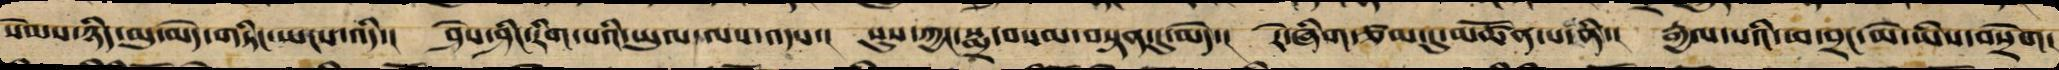སེམས་ཉིད་མུ་མེད་གཏིང་ཡངས་འདི་། ཤེས་ཤིང་རིག་པའི་ཡུལ་ལས་འདས་། སུས་ཀྱང་སྨྲ་བསམ་བསྟན་དུ་མེད་། རེ་ཞིག་ཙམ་དུ་མཚོན་པ་ནི་། རྒྱལ་པོའི་ཕ་བྲང་མེ་ཡིས་བསྲེག།
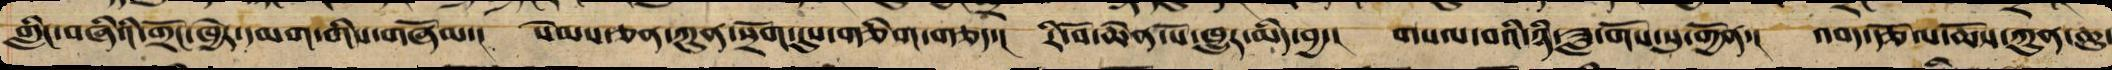གླིང་བཞིའི་གྲོང་ཁྱེར་དམག་གིས་གཞོམ་། སེམས་ཅན་ཀུན་སྲོག་དུས་གཅིག་གཅད་། རི་བོ་ཆེན་པོ་ཁྱུར་མིད་བྱ་། གསལ་བའི་ཉི་ཟླ་གོས་སུ་གྱོན་། འབད་རྩོལ་ཆོས་ཀུན་ཆུ་
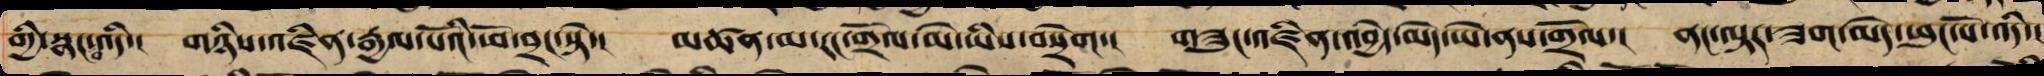གྱི་སྣང་བ་འདི། གཉིས་འཛིན་རྒྱལ་པོའི་ཕོ་བྲང་སྟེ། མཚན་མ་རང་གྲོལ་མེ་ཡིས་བསྲེག གཟུང་འཛིན་འབྱེད་མེད་ཡེ་ནས་གྲོལ། ནང་ལྟར་ཟག་མེད་ཕུང་པོ་འདི།
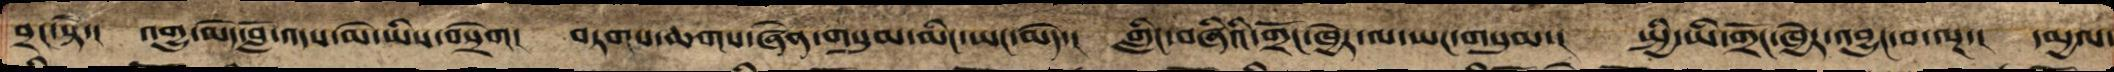བྲང་སྟེ་། འགྱུ་མེད་བློ་འདས་མེ་ཡིས་བསྲེག། བཏགས་ཆགས་ཞེན་གསུམ་མིང་ཡང་མེད་། གླིང་བཞིའི་གྲོང་ཁྱེར་ལ་ཡང་གསུམ་། སྤྱི་ཡི་གྲོང་ཁྱེར་འབྱུང་བ་ལྔ་། དམྱལ་
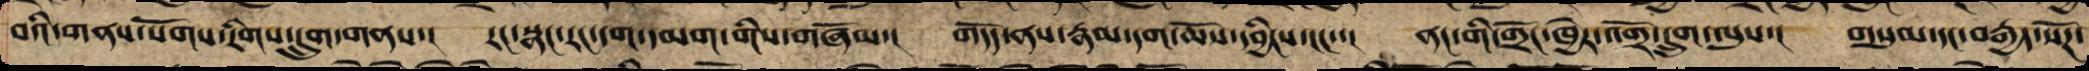བའི་གནས་སོགས་རིགས་དྲུག་གནས་། རང་སྣང་རང་དག་དམག་གིས་གཞོམ་། གདོད་ནས་རྣམ་དག་ཆོས་དབྱིངས་ངང་་། ནང་གི་གྲོང་ཁྱེར་འགྲོ་དྲུག་ལུས་། གསུམ་དང་བརྒྱད་སོཌ་
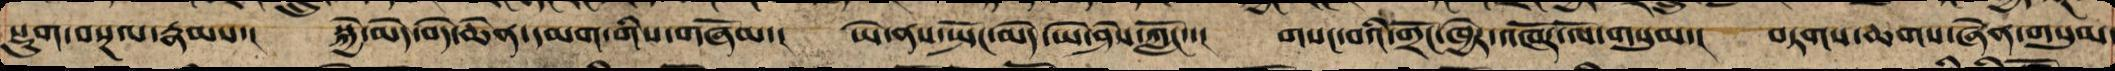སྡུག་བསྔལ་རྣམས་། སྐྱེ་མེད་བདེ་ཆེན་དམག་གིས་གཞོམ་། ཡེ་ནས་སྤང་མེད་ཡེ་ཤེས་ཀློང་་། གསང་བའི་གྲོང་ཁྱེར་འཁོར་ལོ་གསུམ་། བཏགས་ཆགས་ཞེན་གསུམ་
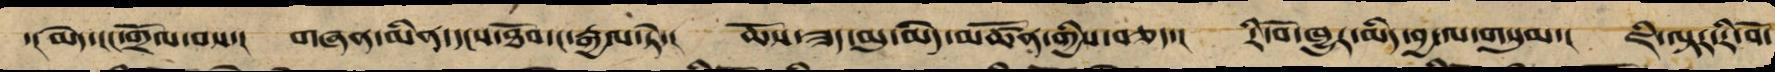་། མེད་ངང་གྲོལ་བས་། གཞན་མིན་དངས་ཐོབ་ང་རྒྱལ་ཏེ་། ཆོས་ཟད་མུ་མེད་མཚོན་གྱིས་བཅད་། རི་བོ་ཁྱུར་མིད་བྱ་ལ་གསུམ་། ཇི་ལྟར་རི་བོ་
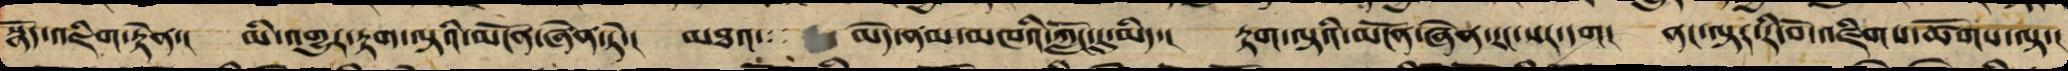སྣོད་འཇིག་རྟེན་། མི་འགྱུར་རྟག་ལྟའི་མངོན་ཞེན་ཏེ་། མཐའ་ མེད་ནམ་མཁའི་ཀློང་དུ་མིད་། རྟག་ལྟའི་མངོན་ཞེན་རང་སར་དག། ནང་ལྟར་རི་བོ་འཇིག་ཚོགས་ལྟ་།
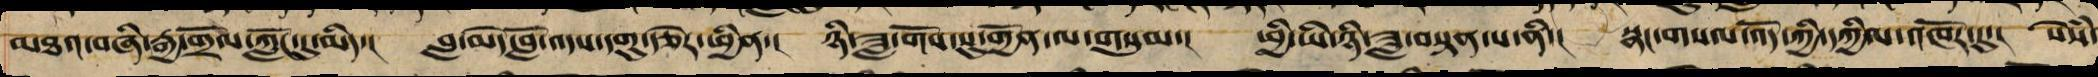མཐའ་བཞི་རྒྱ་གྲོལ་ཀློང་དུ་མིད་། བླ་མེད་བློ་འདས་དགུ་རྩེར་ཕྱིན་། ཉི་ཟླ་གོས་སུ་གྱོན་ལ་གསུམ་། ཕྱི་ཡི་ཉི་ཟླ་བསྟན་པ་ནི་། སྣང་གསལ་འོད་ཀྱི་དཀྱིལ་འཁོར་དུ་། སེཾས་
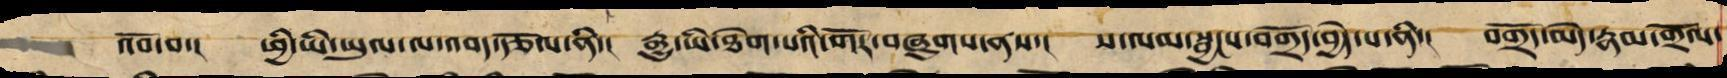འབོ་བ་། ཕྱི་ཡི་ཡུལ་ལ་འབད་རྩོལ་ནི་། རྒྱུ་ཡི་ཐེག་པའི་གོར་བཞུགས་ནས་། ས་ལམ་སྦྱངས་བགྲོད་བྱེད་པ་ནི་། བགྲོད་མེད་རྣམ་གྲོལ་
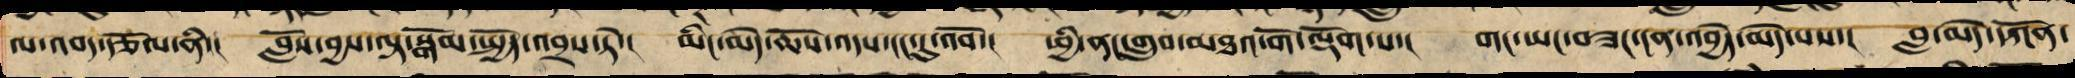ལ་འབད་རྩོལ་ནི་། བློས་བྱས་ལྟ་སྒོམ་སྤྱོད་འབྲས་ཏེ་། མིང་མེད་ཆོས་འདས་ངང་དུ་འབོ་། ཕྱི་ནང་གྲུབ་མཐའ་གོ་ལྡོག་པ་། གང་ཡང་བཟང་ངན་འབྱེད་མེད་པས་། བླ་མེད་དཀོན་
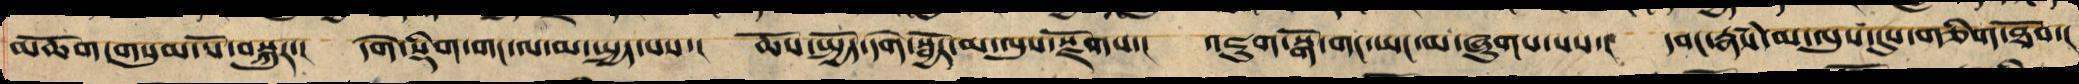མཆོག་གསུམ་པོ་བསྐུར་། དགེ་སྡིག་གང་ལ་མ་སྤྱད་པས་། ཆོས་སྤྱོད་དགེ་སྦྱོར་མ་ལུས་རྫོགས་། འཇུག་སྒོ་གང་ཡང་མ་ཞུགས་པས་། དབང་རྣཾས་མ་ལུས་དུས་གཅིག་ཐོབ་།
